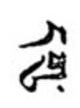དགུ་
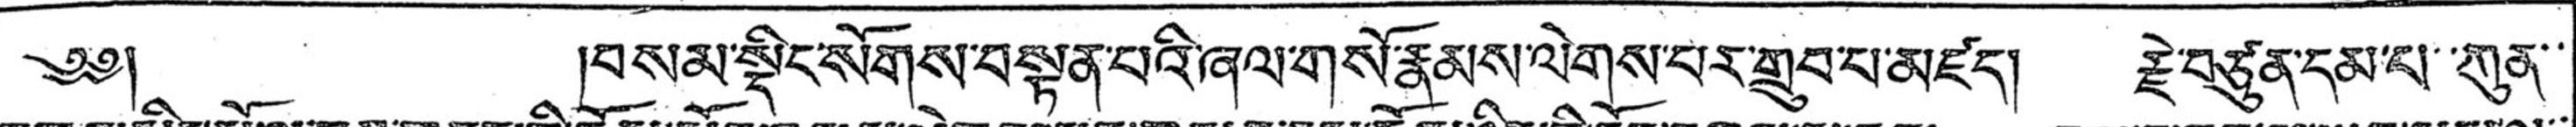བསམ་སྡིང་སོགས་བསྟནཔའི་ཞལ་གསོ་རྣམས་ལེགས་པར་གྲུབ་པ་མཛད། རྗེ་བཙུན་དམ་པ་་ཀུན་་
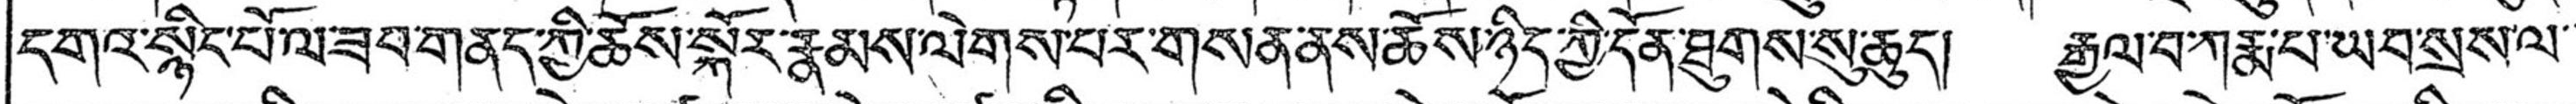དགའ་སྙིང་པོ་ལཟབ་གནད་ཀྱི་ཆོས་སྐོར་རྣམས་ལེགས་པར་གསན་ནས་ཆོས་ཉིད་ཀྱི་དོན་ཐུགས་སུ་ཆུད། རྒྱལ་བ་ཀརྨ་པ་ཡབ་སྲས་ལ་་
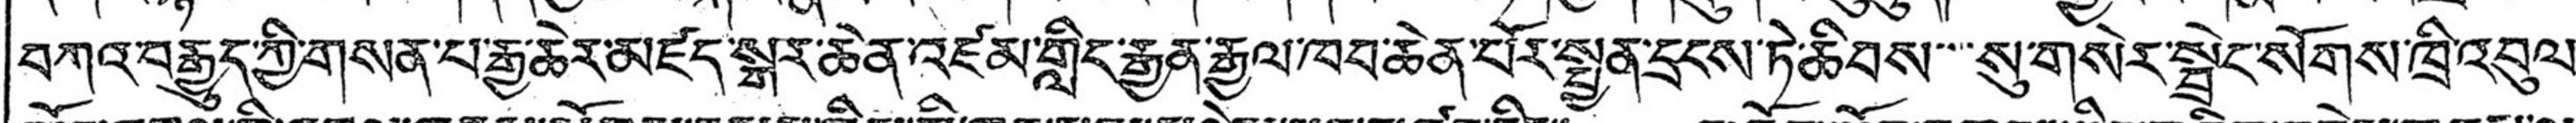བཀའ་བརྒྱུད་ཀྱི་གསན་པ་རྒྱ་ཆེར་མཛད་སྒར་ཆེན་འཛམ་གླིང་རྒྱན་རྒྱལ་ཁབ་ཆེན་པོར་སྤྱན་དྲངས་ཏེ་ཆིབས་་་་སུ་གསེར་སྦྲེང་སོགས་ཁྲི་འབུལ་
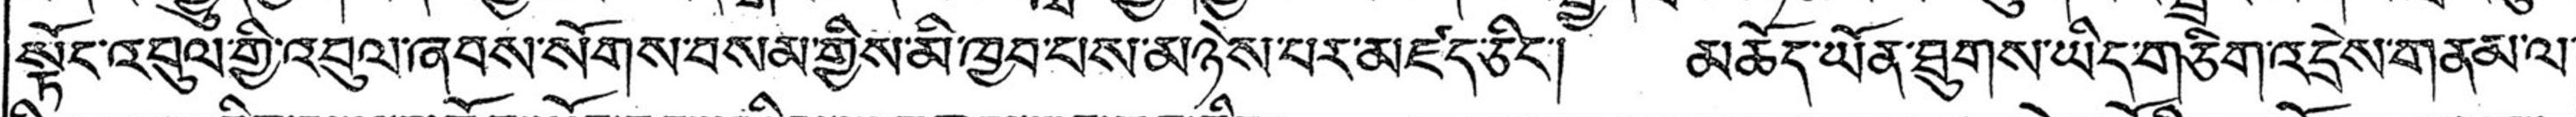སྟོང་འབུལ་གྱི་འབུལ་ཞབས་སོགས་བསམ་གྱིས་མི་ཁྱབ་པས་མཉེས་པར་མཛད་ཅིང་། མཆོད་ཡོན་ཐུགས་ཡིད་གཅིག་འདྲེས་གནམ་ལ་
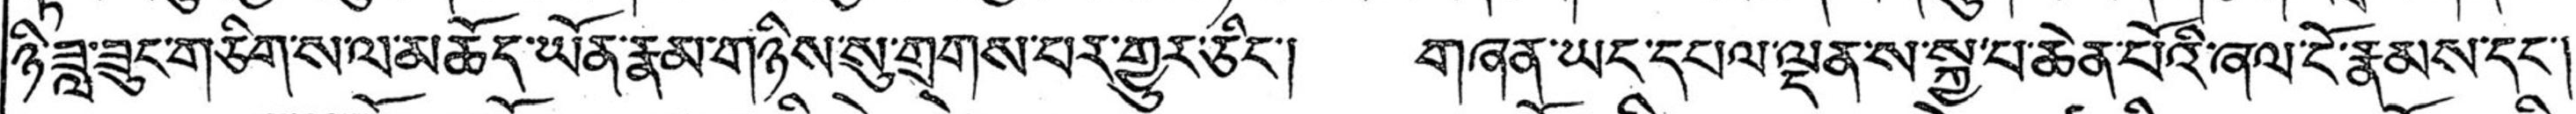ཉི་ཟླ་ཟུང་གཅིག་ས་ལ་མཆོད་ཡོན་རྣམ་གཉིས་སུ་གྲགས་པར་གྱུར་ཅིང་། གཞན་ཡང་དཔལ་ལྡན་ས་སྐྱ་པ་ཆེན་པོའི་ཞལ་ངོ་རྣམས་དང་།
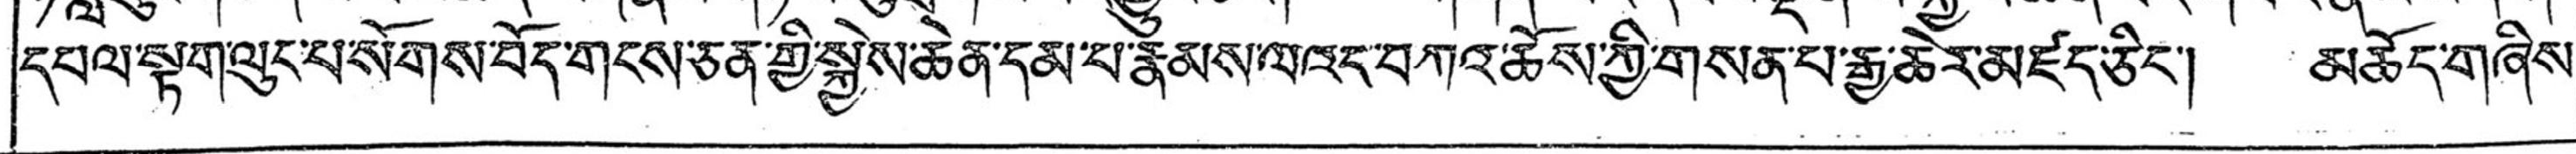དཔལ་སྟག་ལུང་པ་སོགས་བོད་གངས་ཅན་གྱི་སྐྱེས་ཆེན་དམ་པ་རྣམས་ལའང་བཀའ་ཆོས་ཀྱི་གསན་པ་རྒྱ་ཆེར་མཛད་ཅིང་། མཆོད་གཞིས
